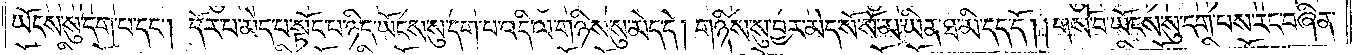ཡོངས་སུ་དག་པ་དང༌། དོར་བ་མེད་པ་སྟོང་པ་ཉིད་ཡོངས་སུ་དག་པ་འདི་ལ་གཉིས་སུ་མེད་དེ། གཉིས་སུ་བྱར་མེད་སོ་སོ་མ་ཡིན་ཐ་མི་དད་དོ། །གསོ་བ་ཡོངས་སུ་དག་པས་རང་བཞིན་
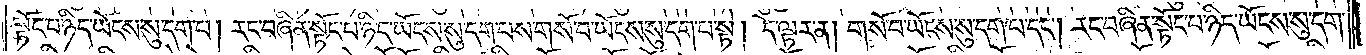སྟོང་པ་ཉིད་ཡོངས་སུ་དག་པ། རང་བཞིན་སྟོང་པ་ཉིད་ཡོངས་སུ་དག་པས་གསོ་བ་ཡོངས་སུ་དག་པ་སྟེ། དེ་ལྟར་ན། གསོ་བ་ཡོངས་སུ་དག་པ་དང༌། རང་བཞིན་སྟོང་པ་ཉིད་ཡོངས་སུ་དག་
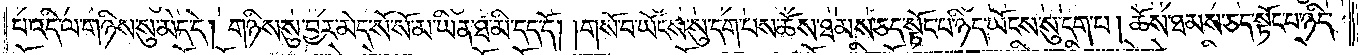པ་འདི་ལ་གཉིས་སུ་མེད་དེ། གཉིས་སུ་བྱར་མེད་སོ་སོ་མ་ཡིན་ཐ་མི་དད་དོ། །གསོ་བ་ཡོངས་སུ་དག་པས་ཆོས་ཐམས་ཅད་སྟོང་པ་ཉིད་ཡོངས་སུ་དག་པ། ཆོས་ཐམས་ཅད་སྟོང་པ་ཉིད་
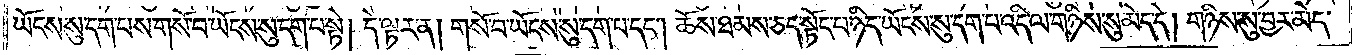ཡོངས་སུ་དག་པས་གསོ་བ་ཡོངས་སུ་དག་པ་སྟེ། དེ་ལྟར་ན། གསོ་བ་ཡོངས་སུ་དག་པ་དང༌། ཆོས་ཐམས་ཅད་སྟོང་པ་ཉིད་ཡོངས་སུ་དག་པ་འདི་ལ་གཉིས་སུ་མེད་དེ། གཉིས་སུ་བྱར་མེད་
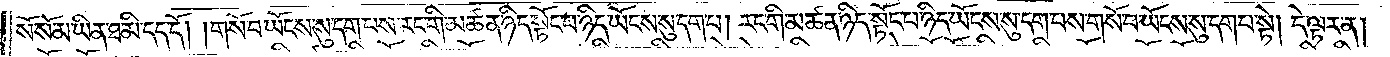སོ་སོ་མ་ཡིན་ཐ་མི་དད་དོ། །གསོ་བ་ཡོངས་སུ་དག་པས་རང་གི་མཚན་ཉིད་སྟོང་པ་ཉིད་ཡོངས་སུ་དག་པ། རང་གི་མཚན་ཉིད་སྟོང་པ་ཉིད་ཡོངས་སུ་དག་པས་གསོ་བ་ཡོངས་སུ་དག་པ་སྟེ། དེ་ལྟར་ན།
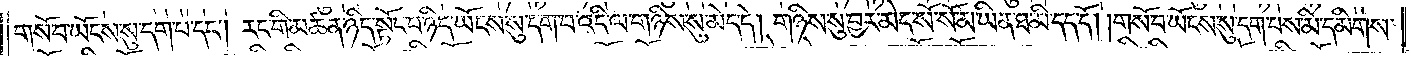གསོ་བ་ཡོངས་སུ་དག་པ་དང༌། རང་གི་མཚན་ཉིད་སྟོང་པ་ཉིད་ཡོངས་སུ་དག་པ་འདི་ལ་གཉིས་སུ་མེད་དེ། གཉིས་སུ་བྱར་མེད་སོ་སོ་མ་ཡིན་ཐ་མི་དད་དོ། །གསོ་བ་ཡོངས་སུ་དག་པས་མི་དམིགས་
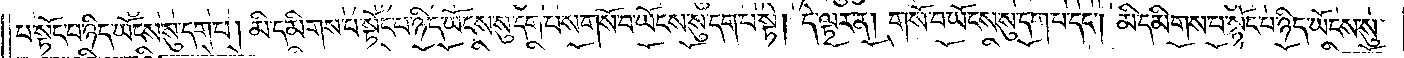པ་སྟོང་པ་ཉིད་ཡོངས་སུ་དག་པ། མི་དམིགས་པ་སྟོང་པ་ཉིད་ཡོངས་སུ་དག་པས་གསོ་བ་ཡོངས་སུ་དག་པ་སྟེ། དེ་ལྟར་ན། གསོ་བ་ཡོངས་སུ་དག་པ་དང༌། མི་དམིགས་པ་སྟོང་པ་ཉིད་ཡོངས་སུ་
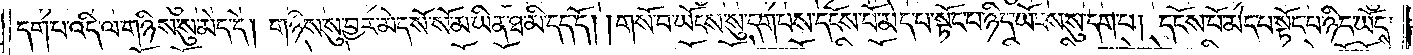དག་པ་འདི་ལ་གཉིས་སུ་མེད་དེ། གཉིས་སུ་བྱར་མེད་སོ་སོ་མ་ཡིན་ཐ་མི་དད་དོ། །གསོ་བ་ཡོངས་སུ་དག་པས་དངོས་པོ་མེད་པ་སྟོང་པ་ཉིད་ཡོངས་སུ་དག་པ། དངོས་པོ་མེད་པ་སྟོང་པ་ཉིད་ཡོངས་
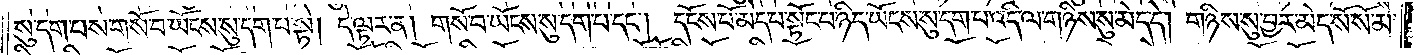སུ་དག་པས་གསོ་བ་ཡོངས་སུ་དག་པ་སྟེ། དེ་ལྟར་ན། གསོ་བ་ཡོངས་སུ་དག་པ་དང༌། དངོས་པོ་མེད་པ་སྟོང་པ་ཉིད་ཡོངས་སུ་དག་པ་འདི་ལ་གཉིས་སུ་མེད་དེ། གཉིས་སུ་བྱར་མེད་སོ་སོ་མ་
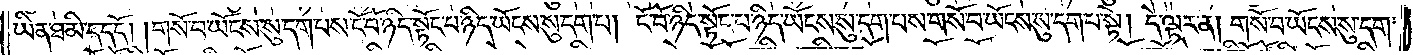ཡིན་ཐ་མི་དད་དོ། །གསོ་བ་ཡོངས་སུ་དག་པས་ངོ་བོ་ཉིད་སྟོང་པ་ཉིད་ཡོངས་སུ་དག་པ། ངོ་བོ་ཉིད་སྟོང་པ་ཉིད་ཡོངས་སུ་དག་པས་གསོ་བ་ཡོངས་སུ་དག་པ་སྟེ། དེ་ལྟར་ན། གསོ་བ་ཡོངས་སུ་དག་
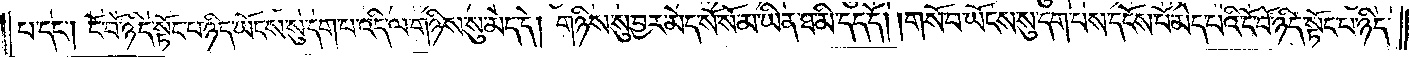པ་དང༌། ངོ་བོ་ཉིད་སྟོང་པ་ཉིད་ཡོངས་སུ་དག་པ་འདི་ལ་གཉིས་སུ་མེད་དེ། གཉིས་སུ་བྱར་མེད་སོ་སོ་མ་ཡིན་ཐ་མི་དད་དོ། །གསོ་བ་ཡོངས་སུ་དག་པས་དངོས་པོ་མེད་པའི་ངོ་བོ་ཉིད་སྟོང་པ་ཉིད་
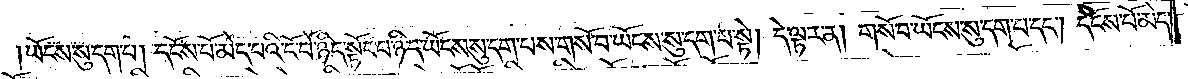ཡོངས་སུ་དག་པ། དངོས་པོ་མེད་པའི་ངོ་བོ་ཉིད་སྟོང་པ་ཉིད་ཡོངས་སུ་དག་པས་གསོ་བ་ཡོངས་སུ་དག་པ་སྟེ། དེ་ལྟར་ན། གསོ་བ་ཡོངས་སུ་དག་པ་དང༌། དངོས་པོ་མེད་
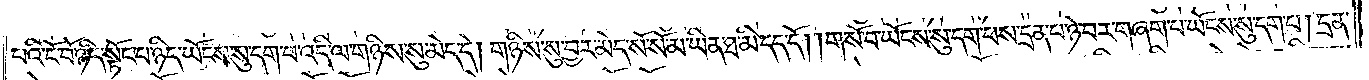པའི་ངོ་བོ་ཉིད་སྟོང་པ་ཉིད་ཡོངས་སུ་དག་པ་འདི་ལ་གཉིས་སུ་མེད་དེ། གཉིས་སུ་བྱར་མེད་སོ་སོ་མ་ཡིན་ཐ་མི་དད་དོ། །གསོ་བ་ཡོངས་སུ་དག་པས་དྲན་པ་ཉེ་བར་གཞག་པ་ཡོངས་སུ་དག་པ། དྲན་
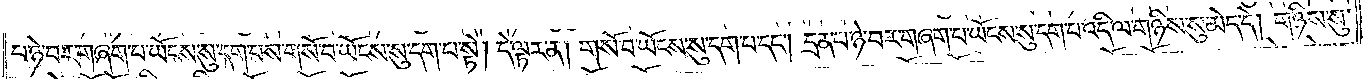པ་ཉེ་བར་གཞག་པ་ཡོངས་སུ་དག་པས་གསོ་བ་ཡོངས་སུ་དག་པ་སྟེ། དེ་ལྟར་ན། གསོ་བ་ཡོངས་སུ་དག་པ་དང༌། དྲན་པ་ཉེ་བར་གཞག་པ་ཡོངས་སུ་དག་པ་འདི་ལ་གཉིས་སུ་མེད་དེ། གཉིས་སུ་
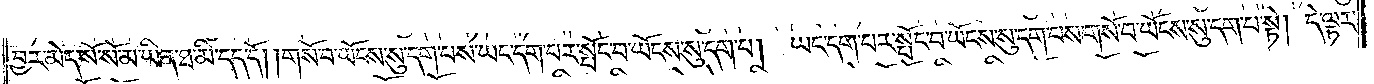བྱར་མེད་སོ་སོ་མ་ཡིན་ཐ་མི་དད་དོ། །གསོ་བ་ཡོངས་སུ་དག་པས་ཡང་དག་པར་སྤོང་བ་ཡོངས་སུ་དག་པ། ཡང་དག་པར་སྤོང་བ་ཡོངས་སུ་དག་པས་གསོ་བ་ཡོངས་སུ་དག་པ་སྟེ། དེ་ལྟར་
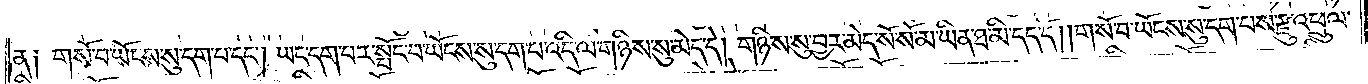ན༑ གསོ་བ་ཡོངས་སུ་དག་པ་དང༌། ཡང་དག་པར་སྤོང་བ་ཡོངས་སུ་དག་པ་འདི་ལ་གཉིས་སུ་མེད་དེ། གཉིས་སུ་བྱར་མེད་སོ་སོ་མ་ཡིན་ཐ་མི་དད་དོ། །གསོ་བ་ཡོངས་སུ་དག་པས་རྫུ་འཕྲུལ་
